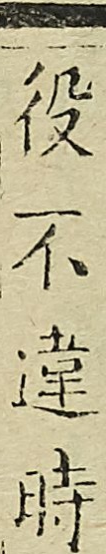役不違時
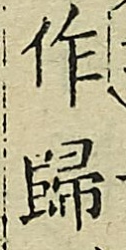作歸
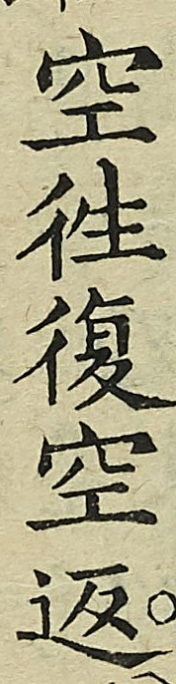空往復空返
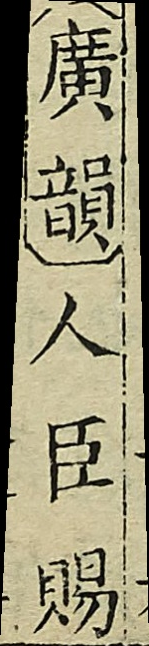（廣韻）人臣賜
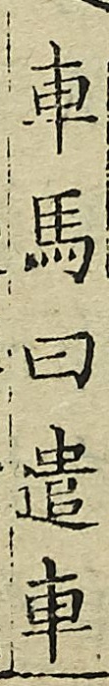車馬曰遣車
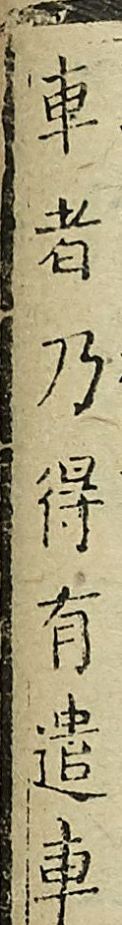車者乃得有遣車
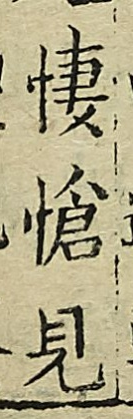悽愴見
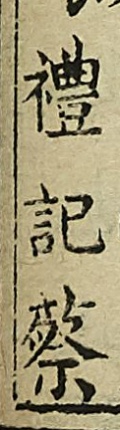禮記蔡
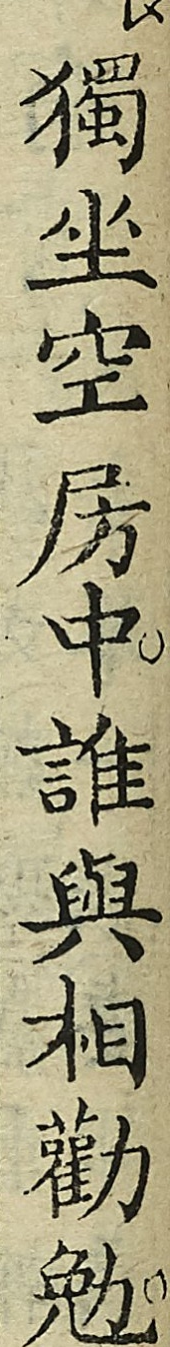獨坐空房中誰與相勸勉
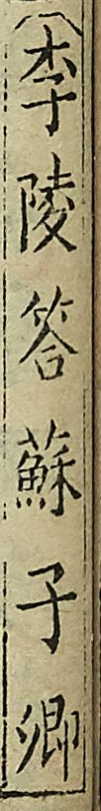（李陵答蘇子卿
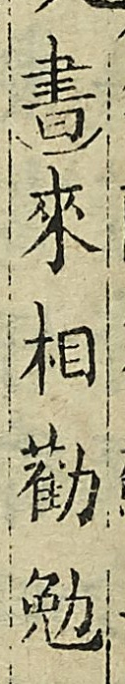書）來相勸勉
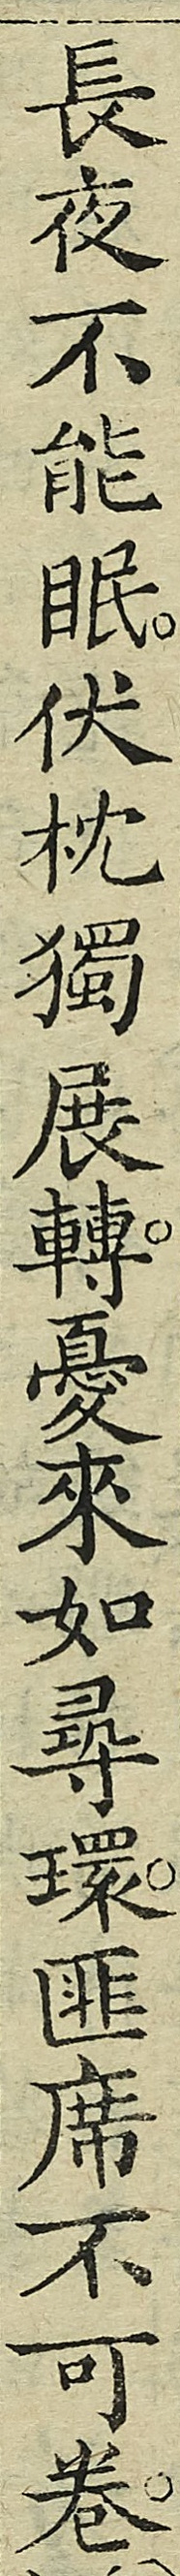長夜不能眠伏枕獨展轉憂來如尋環　匪席不可卷
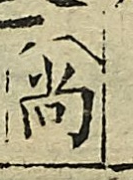（尚
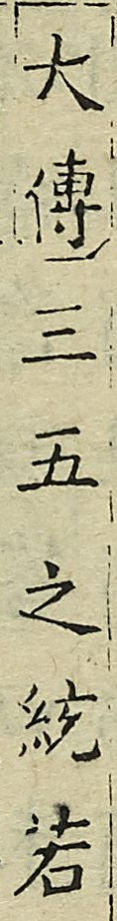大傳）三五之絃若
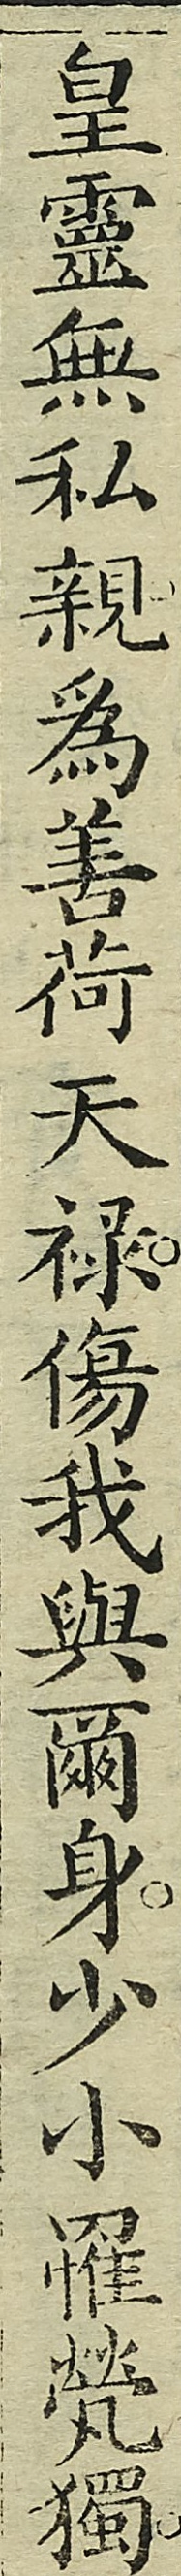皇靈無私親為善荷天祿傷我與爾身少小罹煢獨
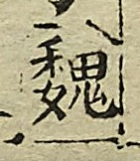（魏
